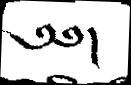༄༅།
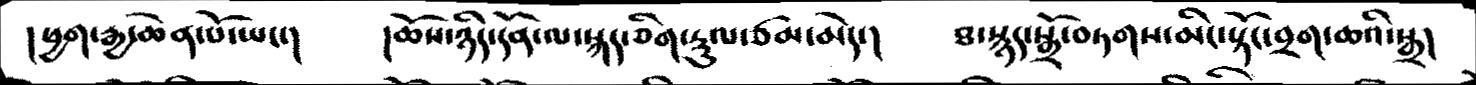།ཕྱག་རྒྱ་ཆེན་པོ་ཡང་།   །ཆོས་ཉིད་དོན་ལ་སྐད་ཅིག་རྡུལ་ཙམ་མེད་།   ཐ་སྙད་སྒྲོ་བཏགས་མིང་སྟོང་བྲག་ཆའི་སྒྲ།
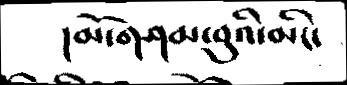།མོ་གཤམ་བུའི་མིང་
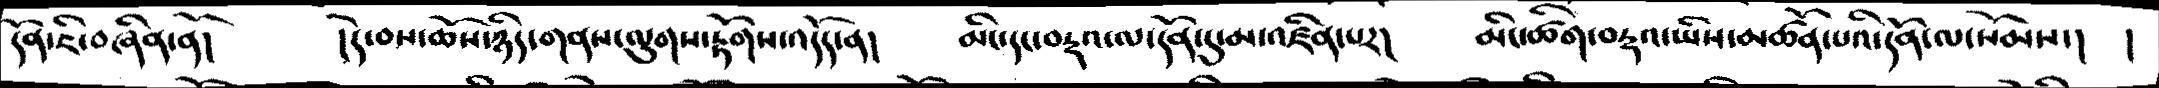དོན་ཇི་བཞིན་ནོ།   །དེ་བས་ཆོས་ཉིད་གནས་ལུགས་རྟོགས་འདོད་ན།  མིང་དང་བཏྡའ་ལ་དོན་དུ་མ་འཛིན་པར།   མིང་ཚིག་བརྡའ་ཡིས་མཚོན་པའི་དོན་ལ་སོམས་།  །
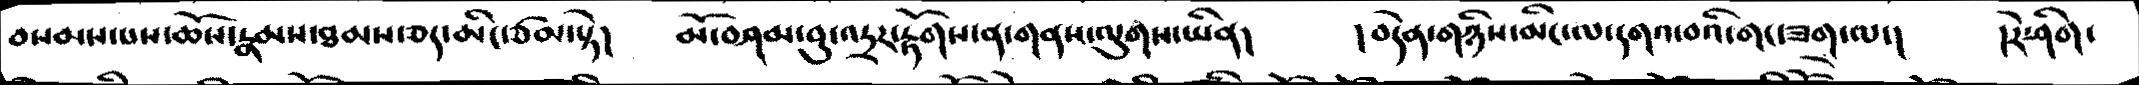བསམས་པས་ཆོས་རྣམས་ཐམས་ཅད་མིང་ཙམ་སྟེ།   མོ་བཤམ་བུ་འདྲར་རྟོགས་ན་གནས་ལུགས་ཡིན།   །བདེན་གཉིས་མིང་ལ་དགའ་བའི་གང་ཟག་ལ་།  །རེ་ཤིག་
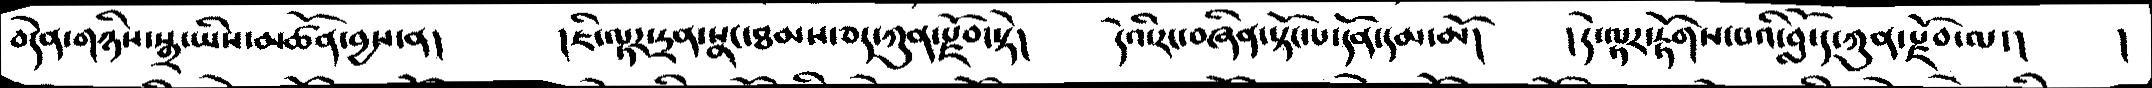བདེན་གཉིས་སྒྲ་ཡིས་མཚོན་བྱས་ན།   །ཇི་ལྟར་དྲན་སྣང་ཐམས་ཅད་ཀུན་རྫོབ་སྟེ།   དེའི་རང་བཞིན་སྟོང་པ་དོན་དམ་མོ།   །དེ་ལྟར་རྟོགས་པའི་བློ་དེ་ཀུན་རྫོབ་ལ་།    །
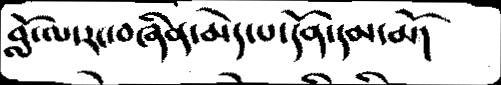བློ་ལ་རང་བཞིན་མེད་པ་དོན་དམ་མོ།
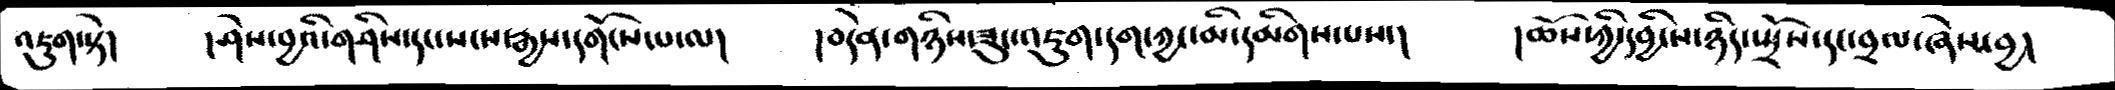འཇུག་སྟེ།   །ཤེས་བྱའི་གཤིས་དང་སངས་རྒྱས་དགོངས་པ་ལ།   །བདེན་གཉིས་ཟུང་འཇུག་དག་ཀྱང་མི་དམིགས་པས་།   །ཆོས་ཀྱི་དབྱིངས་ཉིད་སྤྲོས་དང་བྲལ་ཞེས་བྱ།
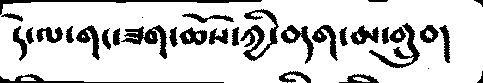དེ་ལ་གང་ཟག་ཆོས་ཀྱི་བདག་མ་གྲུབ།
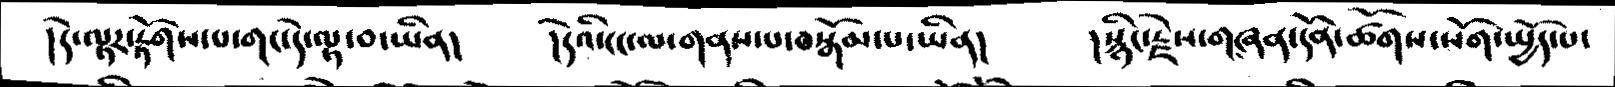།དེ་ལྟར་རྟོགས་པ་གང་དེ་ལྟ་བ་ཡིན།   །དེའི་ངང་ལ་གནས་པ་བསྒོམ་པ་ཡིན།   །སྙིང་རྗེས་གཞན་དོན་ཚོགས་སོག་སྤྱོད་པ་
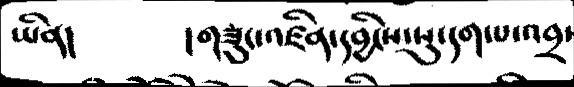ཡིན།        །གཟུང་འཛིན་དབྱིངས་སུ་དག་པ་འབྲས
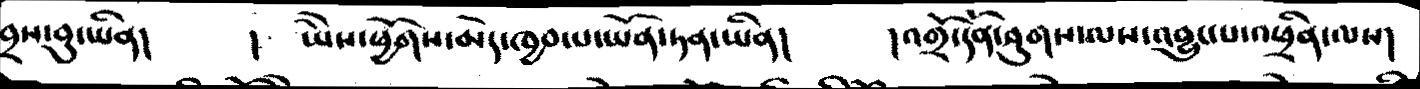བྲས་བུ་ཡིན།   །  ཡཻས་ཕྱོགས་མེད་ཁྱབ་པ་ཡོན་ཏན་ཡིན།    །འགྲོ་དོན་ཤུགས་ལས་འབྱུང་པ་འཕྲིན་ལས།
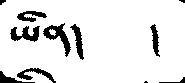ཡིན།          །
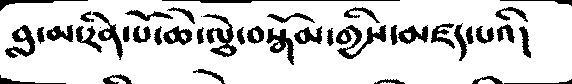བླ་མ་རིན་པོ་ཆེ་ལྕེ་བསྒོམ་གྱིས་མཛད་པའི།
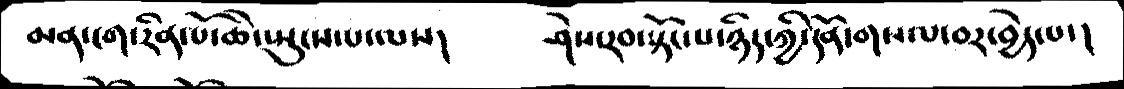མན་ངག་རིན་པོ་ཆེ་སྤུངས་པ་ལས།    ཤེས་རབ་སྟོང་པ་ཉིད་ཀྱི་དོན་གསལ་བར་བྱེད་པ་།
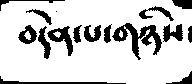བདེན་པ་གཉིས་
